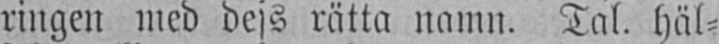ringen med dess rätta namn. Tal. häl-
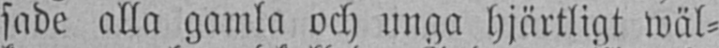sade alla gamla och unga hjärtligt wäl-
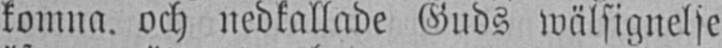komna och nedkallade Guds wälsignelse
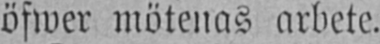öfwer mötenas arbete.
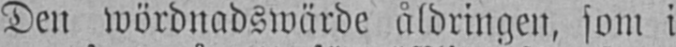Den wördnadswärde åldringen, som i
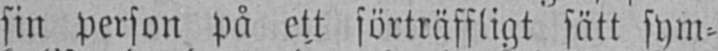sin person på ett förträffligt sätt sym-
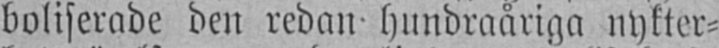boliserade den redan hundraåriga nykter-
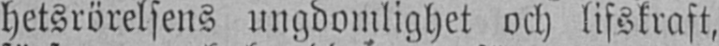hetsrörelsens ungdomlighet och lifskraft,
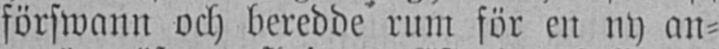förswann och beredde rum för en ny an-
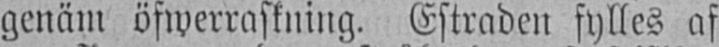genäm öfwerraskning. Estraden fylles af
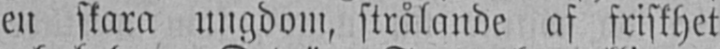en skara ungdom, strålande af friskhet
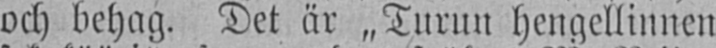och behag. Det är „Turun hengellinnen
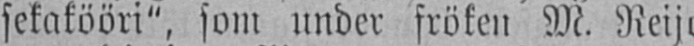sekakööri", som under fröken M. Reijo-
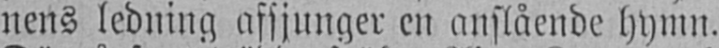nens ledning afsjunger en anslående hymn.
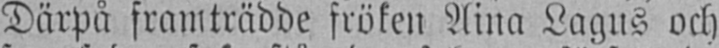Därpå framträdde fröken Aina Lagus och
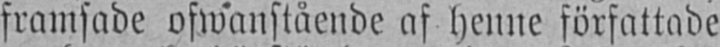framsade ofwanstående af henne författade
